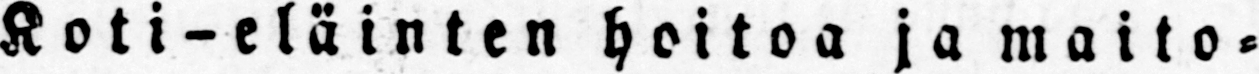Koti-eläinten hoitoa ja maito-
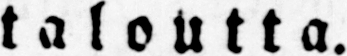taloutta.
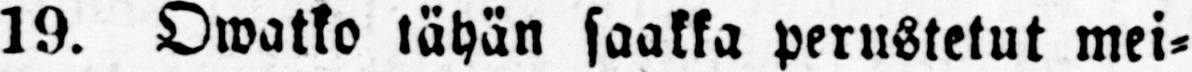19. Omatko tähän saakka perustetut mei-
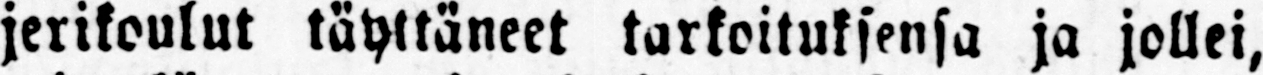jerikoulut täyttäneet tarkoituksensa ja jollei,
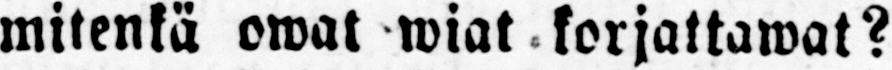mitenkä owat wiat korjattawat?
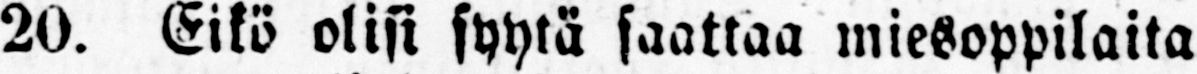20. Eikö olisi syytä saattaa miesoppilaita
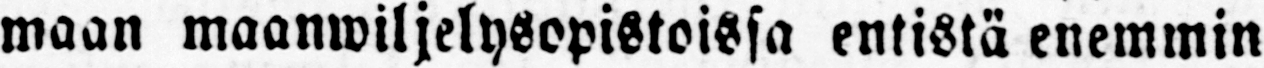maan maanwiljelysopistoissa entistä enemmin
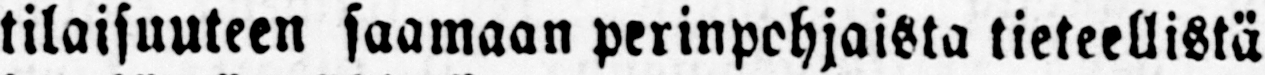tilaisuuteen saamaan perinpohjaista tieteellistä
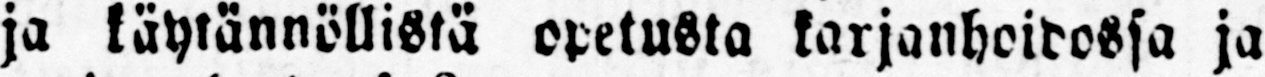ja käytännöllistä opetusta karjanhoidossa ja
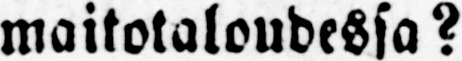maitotaloudessa?
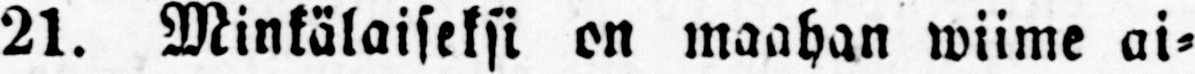21. Minkälaiseksi en maahan wiime ai-
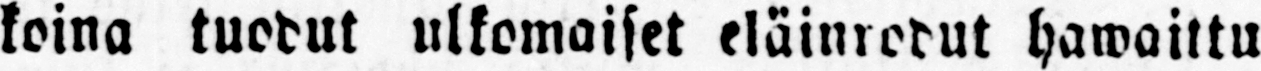koina tuodut ulkomaiset eläinrodut hawaittu
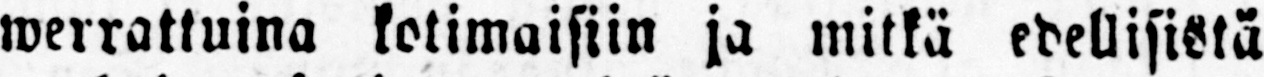werrattuina kotimaisiin ja mitkä edellisistä
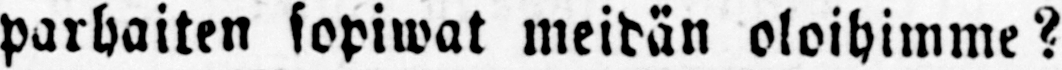parhaiten sopiwat meidän oloihimme?
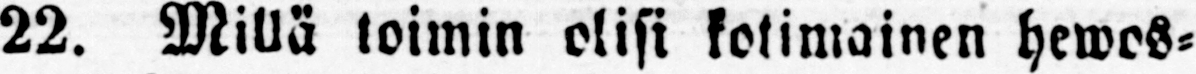22. Millä toimin olisi kotimainen hewos-
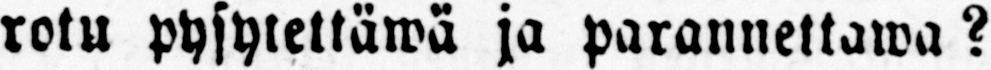rotu pysytettäwä ja parannettawa?
